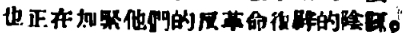也正在加緊他們的反革命復辟的陰謀。
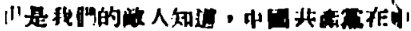但是我們的敵人知道，中國共產黨在中
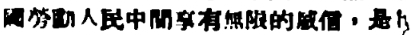國勞動人民中間享有無限的威信，是我
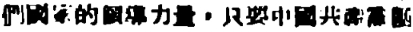們國家的領導力量，只要中國共產黨團
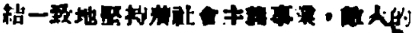結一致地堅持着社會主義事業，敵人的
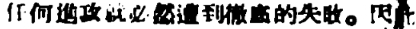任何進攻就必然遭到徹底的失敗。因此
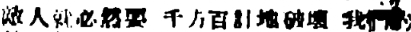敵人就必然要 千方百計地破壞 我們的
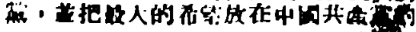黨，並把最大的希望放在中國共產黨的
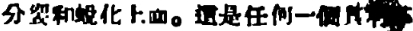分裂和蛻化上面。這是任何一個具有革
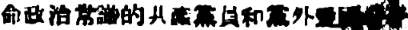命政治常識的共產黨員和黨外愛國團體
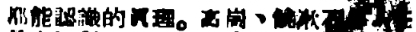都能認識的眞理。高崗、饒漱石兩人正
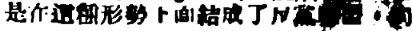是在這種形勢下面結成了反黨聯盟，對
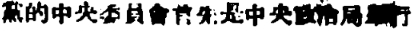黨的中央委員會首先是中央政治局進行
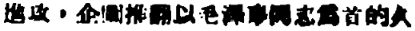進攻，企圖推翻以毛澤東同志爲首的久
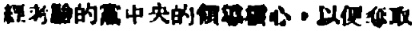經考驗的黨中央的領導核心，以便奪取
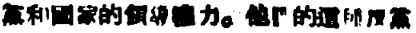黨和國家的領導權力。他們的這種反黨
